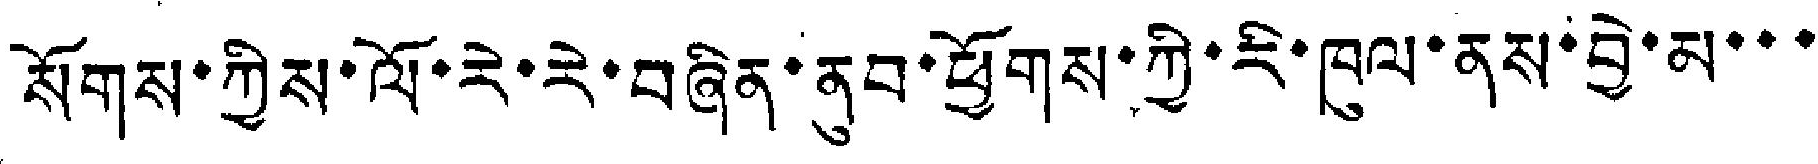སོགས་ཀྱིས་ལོ་རེ་རེ་བཞིན་ནུབ་ཕྱོགས་ཀྱི་རི་ཁུལ་ནས་བྱེ་མ་་་་
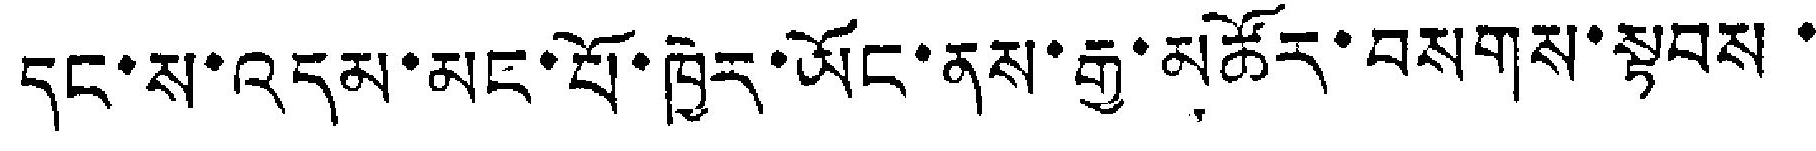དང་ས་འདམ་མང་པོ་ཁྱེར་ཡོང་ནས་རྒྱ་མཚོར་བསགས་སྟབས་
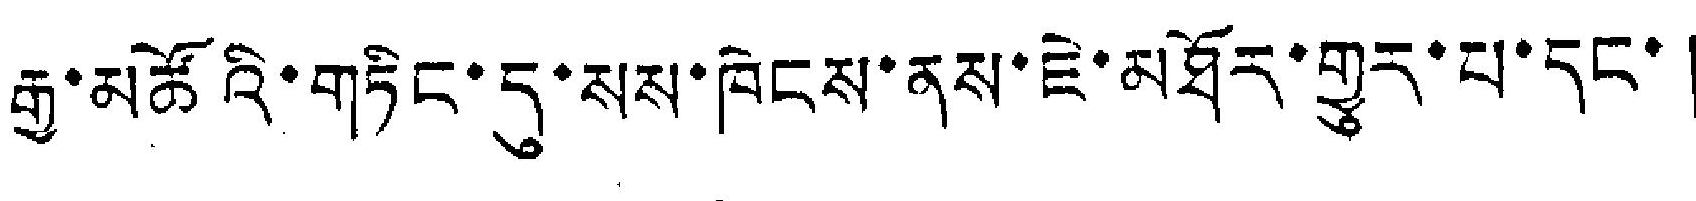རྒྱ་མཚོའི་གཏིང་དུ་སས་ཁེངས་ནས་ཇེ་མཐོར་གྱུར་པ་དང་།
